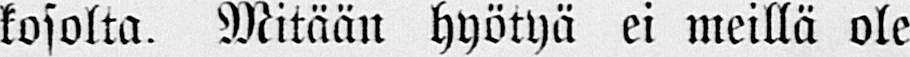kosolta. Mitään hyötyä ei meillä ole
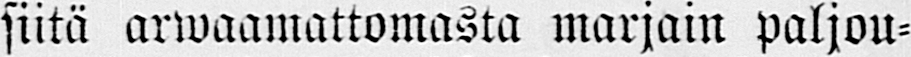siitä arwaamattomasta marjain paljou-
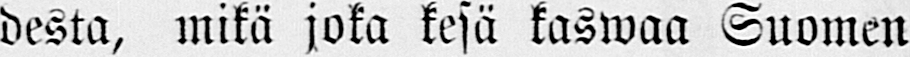desta, mikä joka kesä kaswaa Suomen
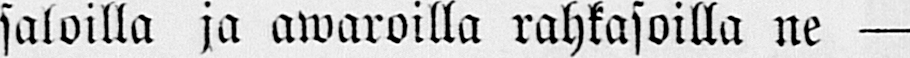saloilla ja awaroilla rahkasoilla ne —
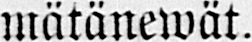mätänewät.
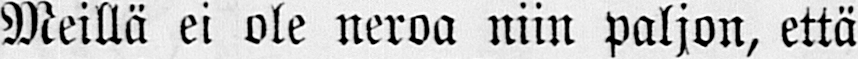Meillä ei ole neroa niin paljon, että
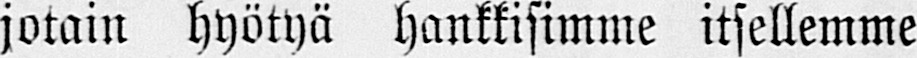jotain hyötyä hankkisimme itsellemme
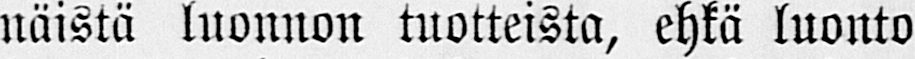näistä luonnon tuotteista, ehkä luonto
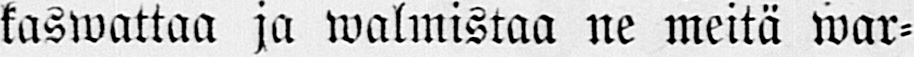kaswattaa ja walmistaa ne meitä war-
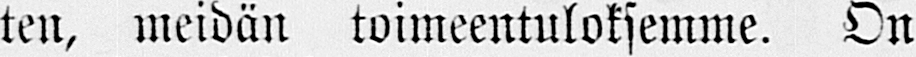ten, meidän toimeentuloksemme. On
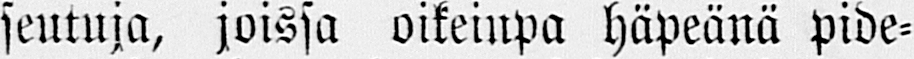seutuja, joissa oikeinpa häpeänä pide-
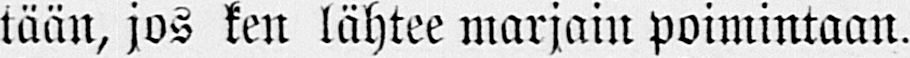tään, jos ken lähtee marjain poimintaan.
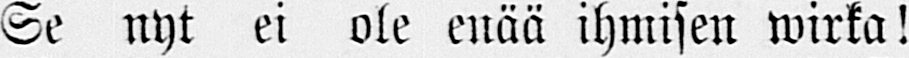Se nyt ei ole enää ihmisen wirka!
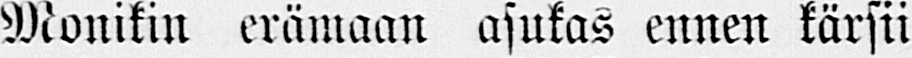Monikin erämaan asukas ennen kärsii
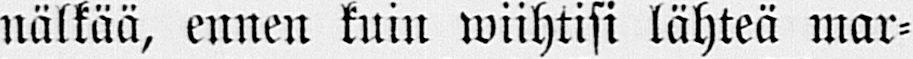nälkää, ennen kuin wiihtisi lähteä mar-
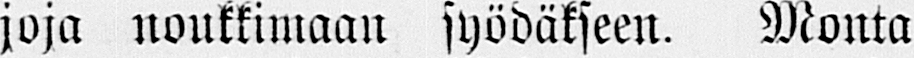joja noukkimaan syödäkseen. Monta
